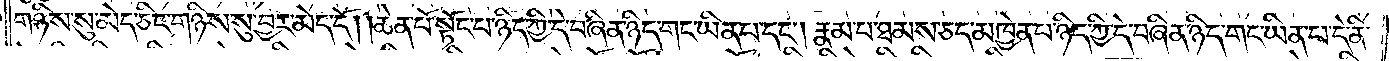གཉིས་སུ་མེད་ཅིང་གཉིས་སུ་བྱར་མེད་དོ། །ཆེན་པོ་སྟོང་པ་ཉིད་ཀྱི་དེ་བཞིན་ཉིད་གང་ཡིན་པ་དང༌། རྣམ་པ་ཐམས་ཅད་མཁྱེན་པ་ཉིད་ཀྱི་དེ་བཞིན་ཉིད་གང་ཡིན་པ་དེ་ནི་
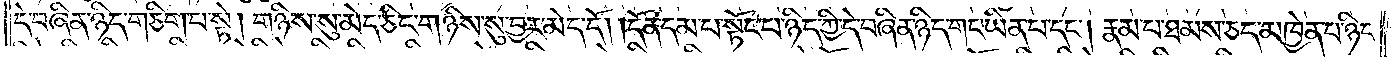དེ་བཞིན་ཉིད་གཅིག་པ་སྟེ། གཉིས་སུ་མེད་ཅིང་གཉིས་སུ་བྱར་མེད་དོ། །དོན་དམ་པ་སྟོང་པ་ཉིད་ཀྱི་དེ་བཞིན་ཉིད་གང་ཡིན་པ་དང༌། རྣམ་པ་ཐམས་ཅད་མཁྱེན་པ་ཉིད་
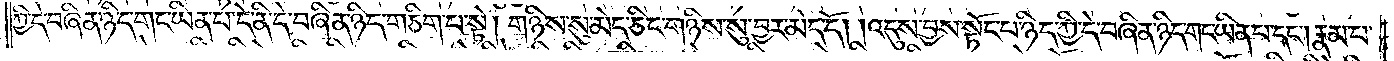ཀྱི་དེ་བཞིན་ཉིད་གང་ཡིན་པ་དེ་ནི་དེ་བཞིན་ཉིད་གཅིག་པ་སྟེ། གཉིས་སུ་མེད་ཅིང་གཉིས་སུ་བྱར་མེད་དོ། །འདུས་བྱས་སྟོང་པ་ཉིད་ཀྱི་དེ་བཞིན་ཉིད་གང་ཡིན་པ་དང༌། རྣམ་པ་
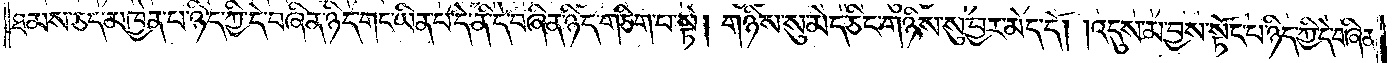ཐམས་ཅད་མཁྱེན་པ་ཉིད་ཀྱི་དེ་བཞིན་ཉིད་གང་ཡིན་པ་དེ་ནི་དེ་བཞིན་ཉིད་གཅིག་པ་སྟེ། གཉིས་སུ་མེད་ཅིང་གཉིས་སུ་བྱར་མེད་དོ། །འདུས་མ་བྱས་སྟོང་པ་ཉིད་ཀྱི་དེ་བཞིན་
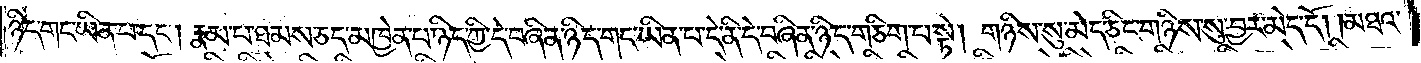ཉིད་གང་ཡིན་པ་དང༌། རྣམ་པ་ཐམས་ཅད་མཁྱེན་པ་ཉིད་ཀྱི་དེ་བཞིན་ཉིད་གང་ཡིན་པ་དེ་ནི་དེ་བཞིན་ཉིད་གཅིག་པ་སྟེ། གཉིས་སུ་མེད་ཅིང་གཉིས་སུ་བྱར་མེད་དོ། །མཐའ་
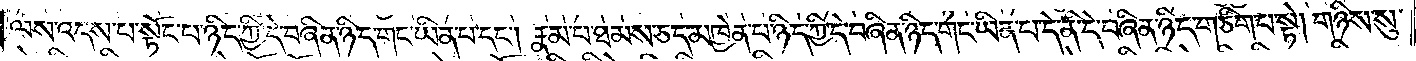ལས་འདས་པ་སྟོང་པ་ཉིད་ཀྱི་དེ་བཞིན་ཉིད་གང་ཡིན་པ་དང༌། རྣམ་པ་ཐམས་ཅད་མཁྱེན་པ་ཉིད་ཀྱི་དེ་བཞིན་ཉིད་གང་ཡིན་པ་དེ་ནི་དེ་བཞིན་ཉིད་གཅིག་པ་སྟེ། གཉིས་སུ་
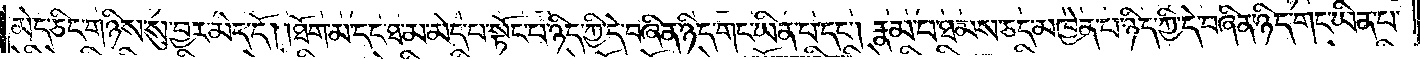མེད་ཅིང་གཉིས་སུ་བྱར་མེད་དོ། །ཐོག་མ་དང་ཐ་མ་མེད་པ་སྟོང་པ་ཉིད་ཀྱི་དེ་བཞིན་ཉིད་གང་ཡིན་པ་དང༌། རྣམ་པ་ཐམས་ཅད་མཁྱེན་པ་ཉིད་ཀྱི་དེ་བཞིན་ཉིད་གང་ཡིན་པ་
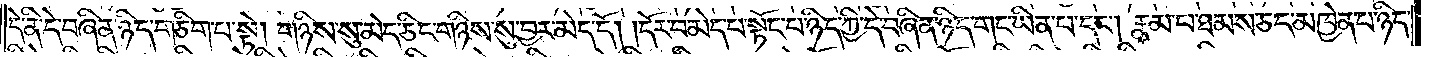དེ་ནི་དེ་བཞིན་ཉིད་གཅིག་པ་སྟེ། གཉིས་སུ་མེད་ཅིང་གཉིས་སུ་བྱར་མེད་དོ། །དོར་བ་མེད་པ་སྟོང་པ་ཉིད་ཀྱི་དེ་བཞིན་ཉིད་གང་ཡིན་པ་དང༌། རྣམ་པ་ཐམས་ཅད་མཁྱེན་པ་ཉིད་
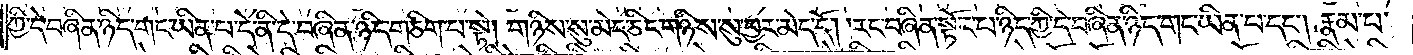ཀྱི་དེ་བཞིན་ཉིད་གང་ཡིན་པ་དེ་ནི་དེ་བཞིན་ཉིད་གཅིག་པ་སྟེ། གཉིས་སུ་མེད་ཅིང་གཉིས་སུ་བྱར་མེད་དོ། །རང་བཞིན་སྟོང་པ་ཉིད་ཀྱི་དེ་བཞིན་ཉིད་གང་ཡིན་པ་དང༌། རྣམ་པ་
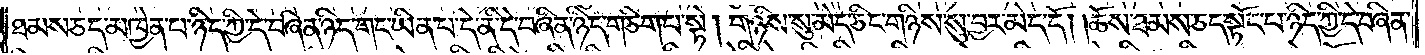ཐམས་ཅད་མཁྱེན་པ་ཉིད་ཀྱི་དེ་བཞིན་ཉིད་གང་ཡིན་པ་དེ་ནི་དེ་བཞིན་ཉིད་གཅིག་པ་སྟེ། གཉིས་སུ་མེད་ཅིང་གཉིས་སུ་བྱར་མེད་དོ། །ཆོས་ཐམས་ཅད་སྟོང་པ་ཉིད་ཀྱི་དེ་བཞིན་
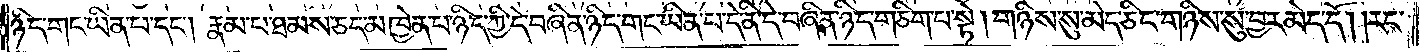ཉིད་གང་ཡིན་པ་དང༌། རྣམ་པ་ཐམས་ཅད་མཁྱེན་པ་ཉིད་ཀྱི་དེ་བཞིན་ཉིད་གང་ཡིན་པ་དེ་ནི་དེ་བཞིན་ཉིད་གཅིག་པ་སྟེ། གཉིས་སུ་མེད་ཅིང་གཉིས་སུ་བྱར་མེད་དོ། །རང་
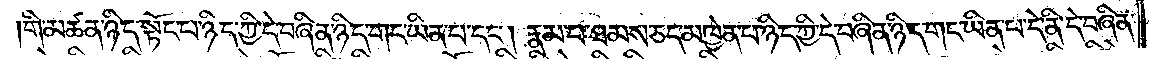གི་མཚན་ཉིད་སྟོང་པ་ཉིད་ཀྱི་དེ་བཞིན་ཉིད་གང་ཡིན་པ་དང༌། རྣམ་པ་ཐམས་ཅད་མཁྱེན་པ་ཉིད་ཀྱི་དེ་བཞིན་ཉིད་གང་ཡིན་པ་དེ་ནི་དེ་བཞིན་
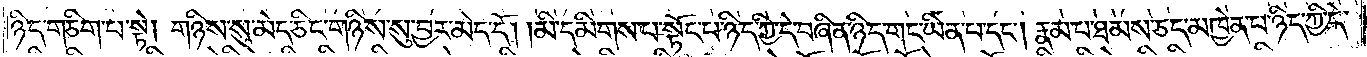ཉིད་གཅིག་པ་སྟེ། གཉིས་སུ་མེད་ཅིང་གཉིས་སུ་བྱར་མེད་དོ། མི་དམིགས་པ་སྟོང་པ་ཉིད་ཀྱི་དེ་བཞིན་ཉིད་གང་ཡིན་པ་དང༌། རྣམ་པ་ཐམས་ཅད་མཁྱེན་པ་ཉིད་ཀྱི་དེ་
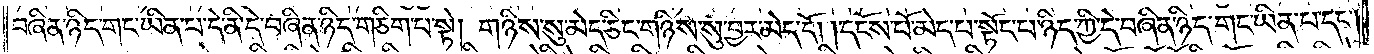བཞིན་ཉིད་གང་ཡིན་པ་དེ་ནི་དེ་བཞིན་ཉིད་གཅིག་པ་སྟེ། གཉིས་སུ་མེད་ཅིང་གཉིས་སུ་བྱར་མེད་དོ། །དངོས་པོ་མེད་པ་སྟོང་པ་ཉིད་ཀྱི་དེ་བཞིན་ཉིད་གང་ཡིན་པ་དང༌།
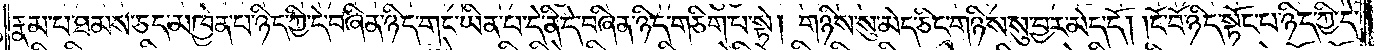རྣམ་པ་ཐམས་ཅད་མཁྱེན་པ་ཉིད་ཀྱི་དེ་བཞིན་ཉིད་གང་ཡིན་པ་དེ་ནི་དེ་བཞིན་ཉིད་གཅིག་པ་སྟེ། གཉིས་སུ་མེད་ཅིང་གཉིས་སུ་བྱར་མེད་དོ། །ངོ་བོ་ཉིད་སྟོང་པ་ཉིད་ཀྱི་དེ་
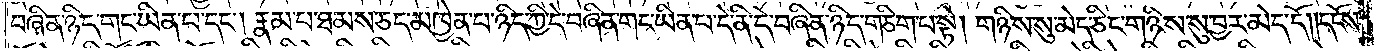བཞིན་ཉིད་གང་ཡིན་པ་དང༌། རྣམ་པ་ཐམས་ཅད་མཁྱེན་པ་ཉིད་ཀྱི་དེ་བཞིན་ཉིད་གང་ཡིན་པ་དེ་ནི་དེ་བཞིན་ཉིད་གཅིག་པ་སྟེ། གཉིས་སུ་མེད་ཅིང་གཉིས་སུ་བྱར་མེད་དོ། །དངོས་
